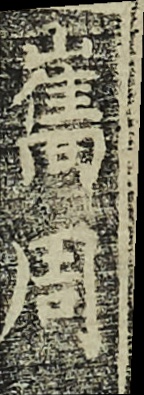嶲周
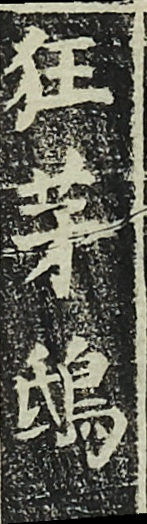狂茅䲭
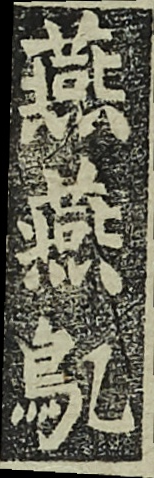燕燕鳦
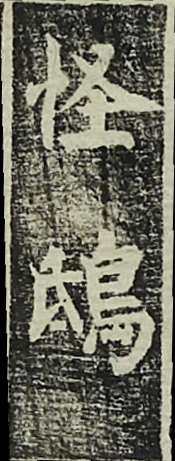怪鴟
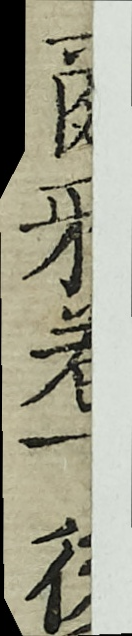爾雅卷一後
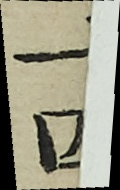一
